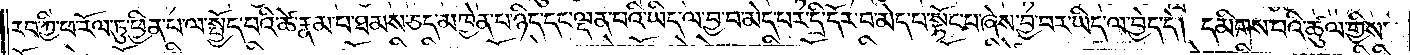རབ་ཀྱི་ཕ་རོལ་ཏུ་ཕྱིན་པ་ལ་སྤྱོད་པའི་ཚེ་རྣམ་པ་ཐམས་ཅད་མཁྱེན་པ་ཉིད་དང་ལྡན་པའི་ཡིད་ལ་བྱ་བ་མེད་པར་དྲི་དོར་བ་མེད་པ་སྟོང་པ་ཞེས་བྱ་བར་ཡིད་ལ་བྱེད་དེ། དམིགས་པའི་ཚུལ་གྱིས་
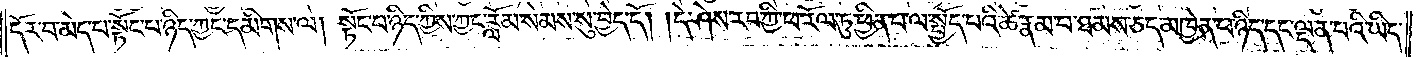དོར་བ་མེད་པ་སྟོང་པ་ཉིད་ཀྱང་དམིགས་ལ། སྟོང་པ་ཉིད་ཀྱིས་ཀྱང་རློམ་སེམས་སུ་བྱེད་དོ། །དེ་ཤེས་རབ་ཀྱི་ཕ་རོལ་ཏུ་ཕྱིན་པ་ལ་སྤྱོད་པའི་ཚེ་རྣམ་པ་ཐམས་ཅད་མཁྱེན་པ་ཉིད་དང་ལྡན་པའི་ཡིད་
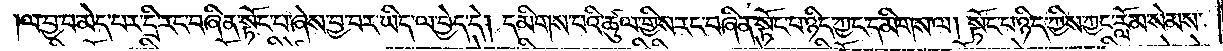ལ་བྱ་བ་མེད་པར་དྲི་རང་བཞིན་སྟོང་པ་ཞེས་བྱ་བར་ཡིད་ལ་བྱེད་དེ། དམིགས་པའི་ཚུལ་གྱིས་རང་བཞིན་སྟོང་པ་ཉིད་ཀྱང་དམིགས་ལ། སྟོང་པ་ཉིད་ཀྱིས་ཀྱང་རློམ་སེམས་
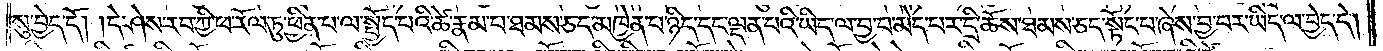སུ་བྱེད་དོ། །དེ་ཤེས་རབ་ཀྱི་ཕ་རོལ་ཏུ་ཕྱིན་པ་ལ་སྤྱོད་པའི་ཚེ་རྣམ་པ་ཐམས་ཅད་མཁྱེན་པ་ཉིད་དང་ལྡན་པའི་ཡིད་ལ་བྱ་བ་མེད་པར་དྲི་ཆོས་ཐམས་ཅད་སྟོང་པ་ཞེས་བྱ་བར་ཡིད་ལ་བྱེད་དེ།
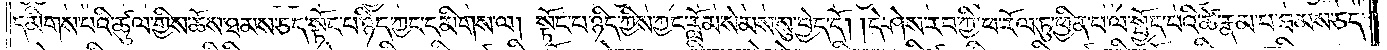དམིགས་པའི་ཚུལ་གྱིས་ཆོས་ཐམས་ཅད་སྟོང་པ་ཉིད་ཀྱང་དམིགས་ལ། སྟོང་པ་ཉིད་ཀྱིས་ཀྱང་རློམ་སེམས་སུ་བྱེད་དོ། །དེ་ཤེས་རབ་ཀྱི་ཕ་རོལ་ཏུ་ཕྱིན་པ་ལ་སྤྱོད་པའི་ཚེ་རྣམ་པ་ཐམས་ཅད་
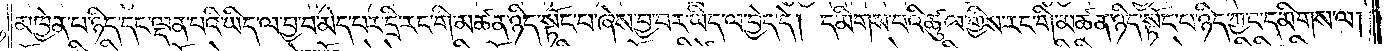མཁྱེན་པ་ཉིད་དང་ལྡན་པའི་ཡིད་ལ་བྱ་བ་མེད་པར་དྲི་རང་གི་མཚན་ཉིད་སྟོང་པ་ཞེས་བྱ་བར་ཡིད་ལ་བྱེད་དེ། དམིགས་པའི་ཚུལ་གྱིས་རང་གི་མཚན་ཉིད་སྟོང་པ་ཉིད་ཀྱང་དམིགས་ལ།
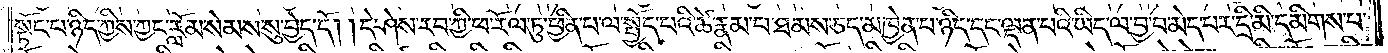སྟོང་པ་ཉིད་ཀྱིས་ཀྱང་རློམ་སེམས་སུ་བྱེད་དོ། །དེ་ཤེས་རབ་ཀྱི་ཕ་རོལ་ཏུ་ཕྱིན་པ་ལ་སྤྱོད་པའི་ཚེ་རྣམ་པ་ཐམས་ཅད་མཁྱེན་པ་ཉིད་དང་ལྡན་པའི་ཡིད་ལ་བྱ་བ་མེད་པར་དྲི་མི་དམིགས་པ་
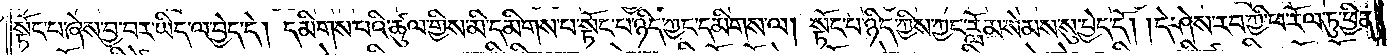སྟོང་པ་ཞེས་བྱ་བར་ཡིད་ལ་བྱེད་དེ། དམིགས་པའི་ཚུལ་གྱིས་མི་དམིགས་པ་སྟོང་པ་ཉིད་ཀྱང་དམིགས་ལ། སྟོང་པ་ཉིད་ཀྱིས་ཀྱང་རློམ་སེམས་སུ་བྱེད་དོ། །དེ་ཤེས་རབ་ཀྱི་ཕ་རོལ་ཏུ་ཕྱིན་
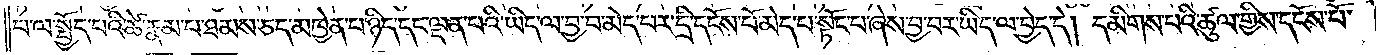པ་ལ་སྤྱོད་པའི་ཚེ་རྣམ་པ་ཐམས་ཅད་མཁྱེན་པ་ཉིད་དང་ལྡན་པའི་ཡིད་ལ་བྱ་བ་མེད་པར་དྲི་དངོས་པོ་མེད་པ་སྟོང་པ་ཞེས་བྱ་བར་ཡིད་ལ་བྱེད་དེ། དམིགས་པའི་ཚུལ་གྱིས་དངོས་པོ་
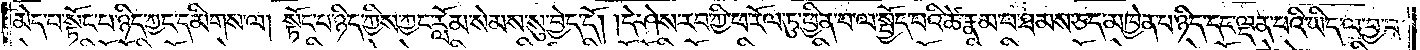མེད་པ་སྟོང་པ་ཉིད་ཀྱང་དམིགས་ལ། སྟོང་པ་ཉིད་ཀྱིས་ཀྱང་རློམ་སེམས་སུ་བྱེད་དོ། །དེ་ཤེས་རབ་ཀྱི་ཕ་རོལ་ཏུ་ཕྱིན་པ་ལ་སྤྱོད་པའི་ཚེ་རྣམ་པ་ཐམས་ཅད་མཁྱེན་པ་ཉིད་དང་ལྡན་པའི་ཡིད་ལ་བྱ་བ་
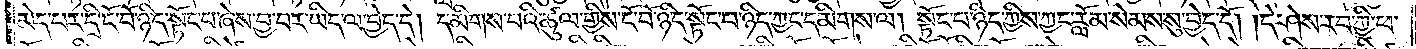མེད་པར་དྲི་ངོ་བོ་ཉིད་སྟོང་པ་ཞེས་བྱ་བར་ཡིད་ལ་བྱེད་དེ། དམིགས་པའི་ཚུལ་གྱིས་ངོ་བོ་ཉིད་སྟོང་པ་ཉིད་ཀྱང་དམིགས་ལ། སྟོང་པ་ཉིད་ཀྱིས་ཀྱང་རློམ་སེམས་སུ་བྱེད་དོ། །དེ་ཤེས་རབ་ཀྱི་ཕ་
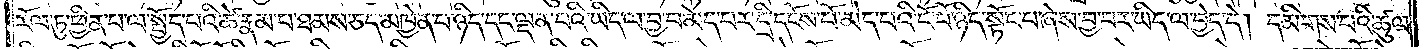རོལ་ཏུ་ཕྱིན་པ་ལ་སྤྱོད་པའི་ཚེ་རྣམ་པ་ཐམས་ཅད་མཁྱེན་པ་ཉིད་དང་ལྡན་པའི་ཡིད་ལ་བྱ་བ་མེད་པར་དྲི་དངོས་པོ་མེད་པའི་ངོ་བོ་ཉིད་སྟོང་པ་ཞེས་བྱ་བར་ཡིད་ལ་བྱེད་དེ། དམིགས་པའི་ཚུལ་
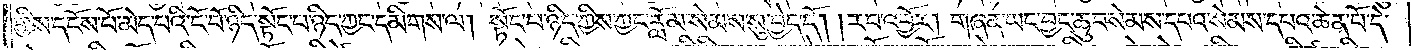གྱིས་དངོས་པོ་མེད་པའི་ངོ་བོ་ཉིད་སྟོང་པ་ཉིད་ཀྱང་དམིགས་ལ། སྟོང་པ་ཉིད་ཀྱིས་ཀྱང་རློམ་སེམས་སུ་བྱེད་དོ། །རབ་འབྱོར། གཞན་ཡང་བྱང་ཆུབ་སེམས་དཔའ་སེམས་དཔའ་ཆེན་པོ་དེ་
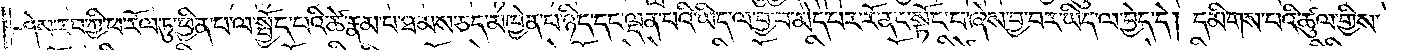ཤེས་རབ་ཀྱི་ཕ་རོལ་ཏུ་ཕྱིན་པ་ལ་སྤྱོད་པའི་ཚེ་རྣམ་པ་ཐམས་ཅད་མཁྱེན་པ་ཉིད་དང་ལྡན་པའི་ཡིད་ལ་བྱ་བ་མེད་པར་རོ་ནང་སྟོང་པ་ཞེས་བྱ་བར་ཡིད་ལ་བྱེད་དེ། དམིགས་པའི་ཚུལ་གྱིས་
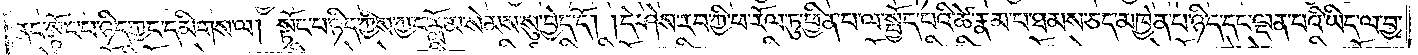ནང་སྟོང་པ་ཉིད་ཀྱང་དམིགས་ལ། སྟོང་པ་ཉིད་ཀྱིས་ཀྱང་རློམ་སེམས་སུ་བྱེད་དོ། །དེ་ཤེས་རབ་ཀྱི་ཕ་རོལ་ཏུ་ཕྱིན་པ་ལ་སྤྱོད་པའི་ཚེ་རྣམ་པ་ཐམས་ཅད་མཁྱེན་པ་ཉིད་དང་ལྡན་པའི་ཡིད་ལ་བྱ་
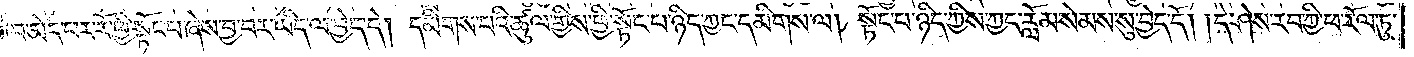བ་མེད་པར་རོ་ཕྱི་སྟོང་པ་ཞེས་བྱ་བར་ཡིད་ལ་བྱེད་དེ། དམིགས་པའི་ཚུལ་གྱིས་ཕྱི་སྟོང་པ་ཉིད་ཀྱང་དམིགས་ལ། སྟོང་པ་ཉིད་ཀྱིས་ཀྱང་རློམ་སེམས་སུ་བྱེད་དོ། །དེ་ཤེས་རབ་ཀྱི་ཕ་རོལ་ཏུ་
